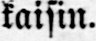kaisin.
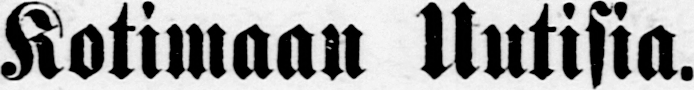Kotimaan Uutisia.
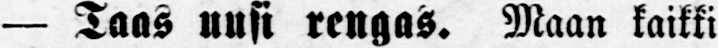— Taas uusi rengas. Maan kaikki
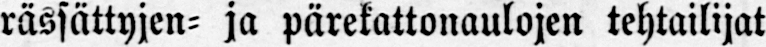rässättyjen- ja pärekattonaulojen tehtailijat
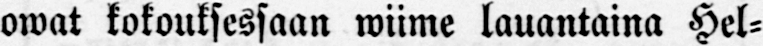owat kokouksessaan wiime lauantaina Hel-
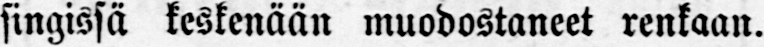singissä keskenään muodostaneet renkaan.
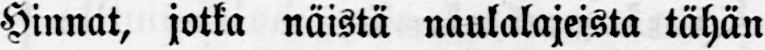Hinnat, jotta näistä naulalajeista tähän
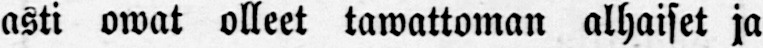asti owat olleet tawattoman alhaiset ja
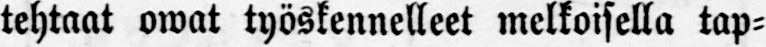tehtaat owat työskennelleet melkoisella tap-
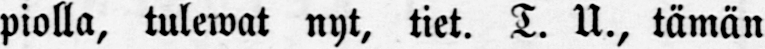piolla, tulewat nyt, tiet. T. U., tämän
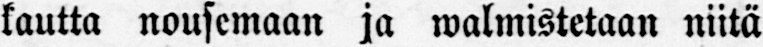kautta nousemaan ja walmistetaan niitä
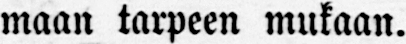maan tarpeen mukaan.
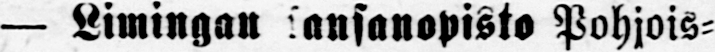— Limingan kansanopisto Pohjois-
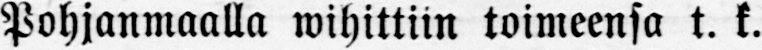Pohjanmaalla wihittiin toimeensa t. k.
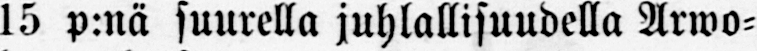15 p:nä suurella juhlallisuudella Arwo-
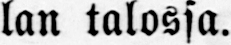lan talossa.
